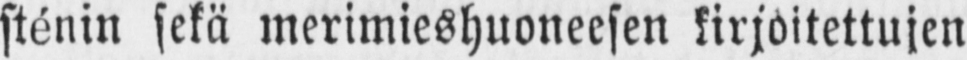sténin sekä merimieshuoneesen kirjoitettujen
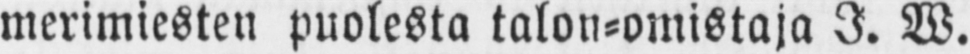merimiesten puolesta talon-omistaja I. W.
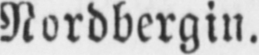Nordbergin.
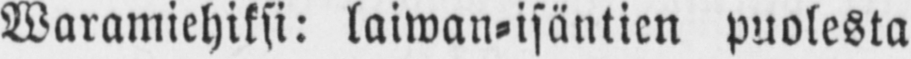Waramiehiksi: laiwan-isäntien puolesta
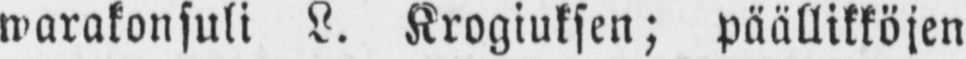warakonsuli L. Krogiuksen; päällikköjen
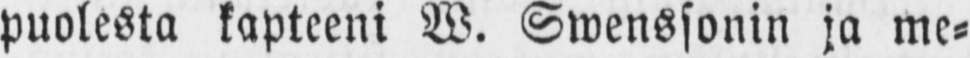puolesta kapteeni W. Swenssonin ja me-
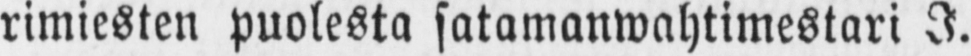rimiesten puolesta satamanwahtimestari I.
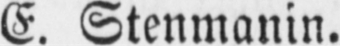E. Stenmanin.
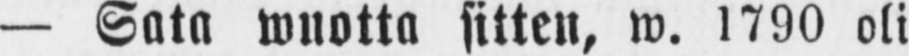— Sata wuotta sitten, w. 1790 oli
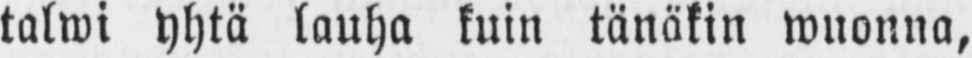talwi yhtä lauha kuin tänäkin wuonna,
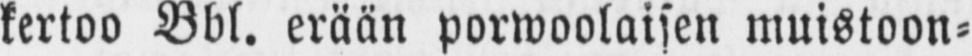kertoo Bbl. erään porwoolaisen muistoon-
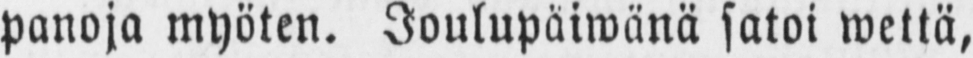panoja myöten. Joulupäiwänä satoi wettä,
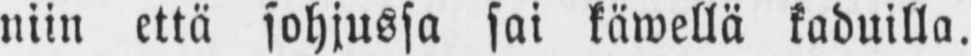niin että sohjussa sai käwellä kaduilla.
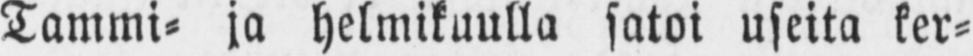Tammi- ja helmikuulla satoi useita ker-
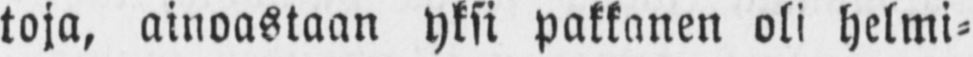toja, ainoastaan yksi pakkanen oli helmi-
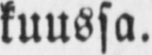kuussa.
